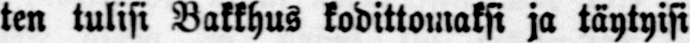ten tulisi Bakkhus kodittomaksi ja täytyisi
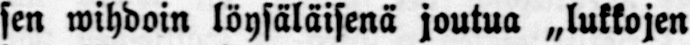sen wihdoin löysäläisenä joutua „lukkojen
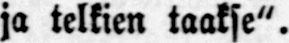ja telkien taakse".
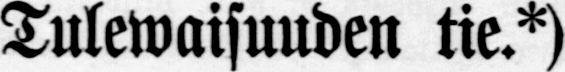Tulewaisuuden tie.*)
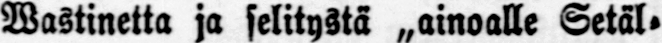Wastinetta ja selitystä „ainoalle Setäl-
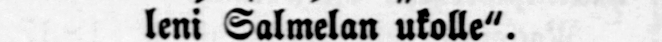leni Salmelan ukolle".
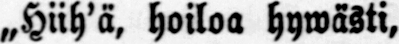„Hiih'ä, hoiloa hywästi,
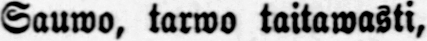Sauwo, tarwo taitawasti,
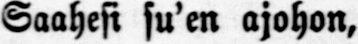Saahesi su'en ajohon,
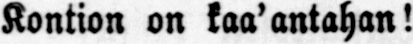Kontion on kaa'antahan!
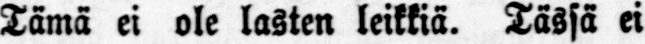Tämä ei ole lasten leikkiä. Tässä ei
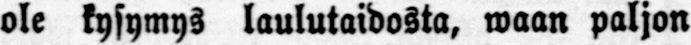ole kysymys laulutaidosta, waan paljon
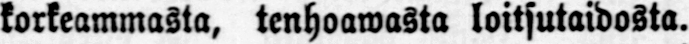korkeammasta, tenhoawasta loitsutaidosta.
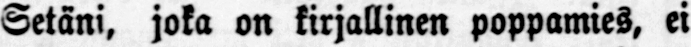Setäni, joka on kirjallinen poppamies, ei
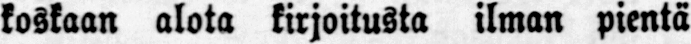koskaan alota kirjoitusta ilman pientä
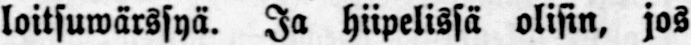loitsuwärssyä. Ja hiipelissä olisin, jos
